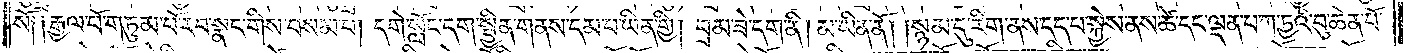སོ། །རྒྱལ་པོ་གཏུམ་པོ་རབ་སྣང་གིས་བསམ་པ། དགེ་སློང་དག་སྦྱིན་གནས་དམ་པ་ཡིན་གྱི། བྲམ་ཟེ་དག་ནི། མ་ཡིན་ནོ། །སྙམ་དུ་རིག་ནས་དད་པ་སྐྱེས་ནས་ཚེ་དང་ལྡན་པ་ཀ་ཏྱའི་བུ་ཆེན་པོ་
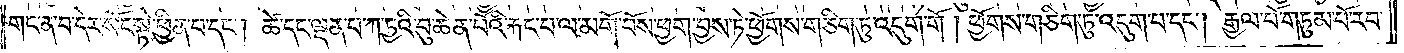གང་ན་བ་དེར་སོང་སྟེ་ཕྱིན་པ་དང༌། ཚེ་དང་ལྡན་པ་ཀ་ཏྱའི་བུ་ཆེན་པོའི་རྐང་པ་ལ་མགོ་བོས་ཕྱག་བྱས་ཏེ་ཕྱོགས་གཅིག་ཏུ་འདུག་གོ །ཕྱོགས་གཅིག་ཏུ་འདུག་པ་དང༌། རྒྱལ་པོ་གཏུམ་པོ་རབ་
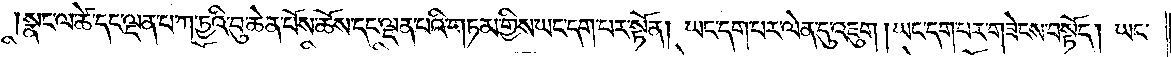སྣང་ལ་ཚེ་དང་ལྡན་པ་ཀ་ཏྱའི་བུ་ཆེན་པོས་ཆོས་དང་ལྡན་པའི་གཏམ་གྱིས་ཡང་དག་པར་སྟོན། ཡང་དག་པར་ལེན་དུ་འཇུག །ཡང་དག་པར་གཟེངས་བསྟོད། ཡང་
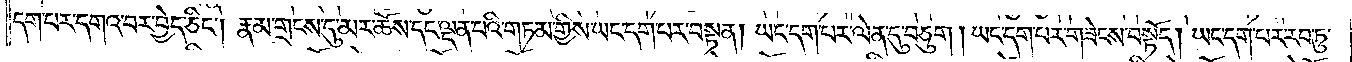དག་པར་དགའ་བར་བྱེད་ཅིང༌། རྣམ་གྲངས་དུ་མར་ཆོས་དང་ལྡན་པའི་གཏམ་གྱིས་ཡང་དག་པར་བསྟན། ཡང་དག་པར་ལེན་དུ་བཅུག །ཡང་དག་པར་གཟེངས་བསྟོད། ཡང་དག་པར་རབ་ཏུ་
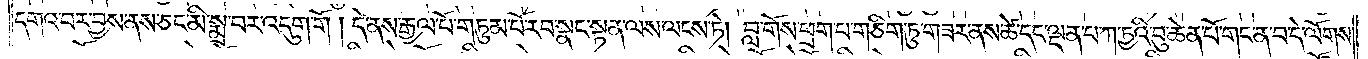དགའ་བར་བྱས་ནས་ཅང་མི་སྨྲ་བར་འདུག་གོ །དེ་ནས་རྒྱལ་པོ་གཏུམ་པོ་རབ་སྣང་སྟན་ལས་ལངས་ཏེ། བླ་གོས་ཕྲག་པ་གཅིག་ཏུ་གཟར་ནས་ཚེ་དང་ལྡན་པ་ཀ་ཏྱའི་བུ་ཆེན་པོ་གང་ན་བ་དེ་ལོགས་
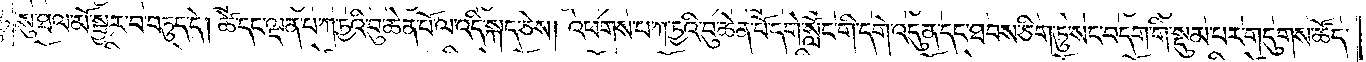སུ་ཐལ་མོ་སྦྱར་བ་བཏུད་དེ། ཚེ་དང་ལྡན་པ་ཀ་ཏྱའི་བུ་ཆེན་པོ་ལ་འདི་སྐད་ཅེས། འཕགས་པ་ཀ་ཏྱའི་བུ་ཆེན་པོ་དགེ་སློང་གི་དགེ་འདུན་དང་ཐབས་ཅིག་ཏུ་སང་བདག་གི་སྡུམ་པར་གདུགས་ཚོད་
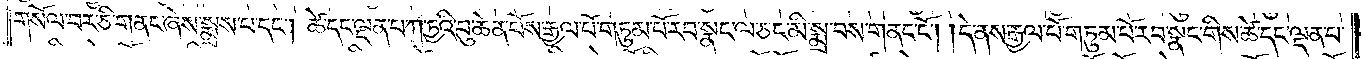གསོལ་བར་ཅི་གནང་ཞེས་སྨྲས་པ་དང༌། ཚེ་དང་ལྡན་པ་ཀ་ཏྱའི་བུ་ཆེན་པོས་རྒྱལ་པོ་གཏུམ་པོ་རབ་སྣང་ལ་ཅང་མི་སྨྲ་བས་གནང་ངོ༌། །དེ་ནས་རྒྱལ་པོ་གཏུམ་པོ་རབ་སྣང་གིས་ཚེ་དང་ལྡན་པ་
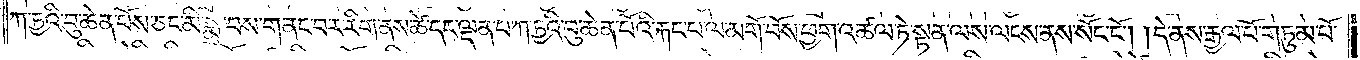ཀ་ཏྱའི་བུ་ཆེན་པོས་ཅང་མི་སྨྲ་བས་གནང་བར་རིག་ནས་ཚེ་དང་ལྡན་པ་ཀ་ཏྱའི་བུ་ཆེན་པོའི་རྐང་པ་ལ་མགོ་བོས་ཕྱག་འཚལ་ཏེ་སྟན་ལས་ལངས་ནས་སོང་ངོ༌། །དེ་ནས་རྒྱལ་པོ་གཏུམ་པོ་
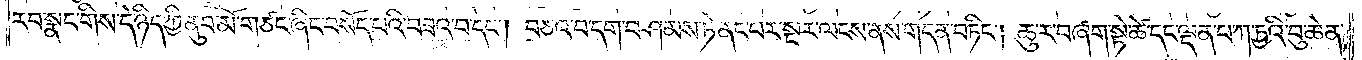རབ་སྣང་གིས་དེ་ཉིད་ཀྱི་ནུབ་མོ་གཙང་ཞིང་བསོད་པའི་བཟའ་བ་དང༌། བཅའ་བ་དག་བཤམས་ཏེ་ནང་པར་སྔར་ལངས་ནས་གདན་བཏིང༌། ཆུ་ར་བཞག་སྟེ་ཚེ་དང་ལྡན་པ་ཀ་ཏྱའི་བུ་ཆེན་
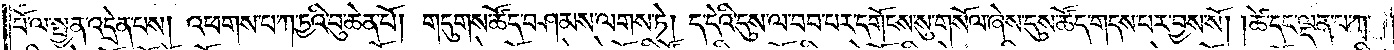པོ་ལ་སྤྱན་འདྲེན་པས། འཕགས་པ་ཀ་ཏྱའི་བུ་ཆེན་པོ། གདུགས་ཚོད་བཤམས་ལགས་ཏེ། ད་དེའི་དུས་ལ་བབ་པར་དགོངས་སུ་གསོལ་ཞེས་དུས་ཚོད་གདས་པར་བྱས་སོ། །ཚེ་དང་ལྡན་པ་ཀ་
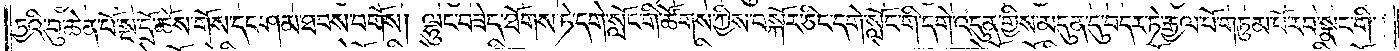ཏྱའི་བུ་ཆེན་པོ་སྔ་དྲོ་ཆོས་གོས་དང་ཤམ་ཐབས་བགོས། ལྷུང་བཟེད་ཐོགས་ཏེ་དགེ་སློང་གི་ཚོགས་ཀྱིས་བསྐོར་ཅིང་དགེ་སློང་གི་དགེ་འདུན་གྱིས་མདུན་དུ་བདར་ཏེ་རྒྱལ་པོ་གཏུམ་པོ་རབ་སྣང་གི་
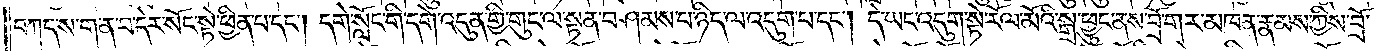བཀད་ས་ག་ན་བ་དེར་སོང་སྟེ་ཕྱིན་པ་དང༌། དགེ་སློང་གི་དགེ་འདུན་གྱི་གུང་ལ་སྟན་བཤམས་པ་ཉིད་ལ་འདུག་པ་དང༌། དེ་ཡང་འདུག་སྟེ་རོལ་མོའི་སྒྲ་ཕྱུང་ནས་བྲོ་གར་མཁན་རྣམས་ཀྱིས་བྲོ་
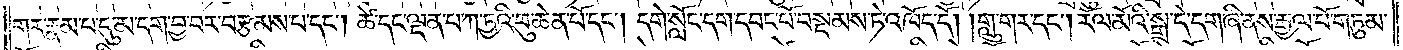གར་རྣམ་པ་དུ་མ་དག་བྱ་བར་བརྩམས་པ་དང༌། ཚེ་དང་ལྡན་པ་ཀ་ཏྱའི་བུ་ཆེན་པོ་དང༌། དགེ་སློང་དག་དབང་པོ་བསྡམས་ཏེ་འཁོད་དོ། །གླུ་གར་དང༌། རོལ་མོའི་སྒྲ་དེ་དག་ཞི་ནས་རྒྱལ་པོ་གཏུམ་
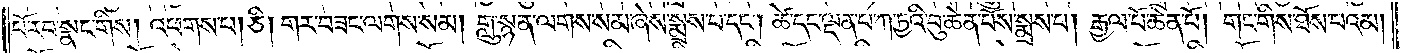པོ་རབ་སྣང་གིས། འཕགས་པ། ཅི། གར་བཟང་ལགས་སམ། གླུ་སྙན་ལགས་སམ་ཞེས་སྨྲས་པ་དང༌། ཚེ་དང་ལྡན་པ་ཀ་ཏྱའི་བུ་ཆེན་པོས་སྨྲས་པ། རྒྱལ་པོ་ཆེན་པོ། གང་གིས་ཐོས་པའམ།
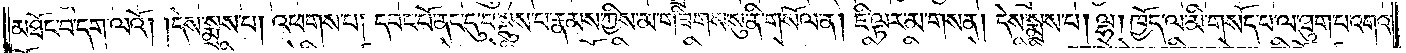མཐོང་བ་དག་ལའོ། །དེས་སྨྲས་པ། འཕགས་པ། དབང་པོ་ནང་དུ་བསྡུས་པ་རྣམས་ཀྱིས་མ་གཟིགས་སུ་ནི་གསོལ་ན། ཇི་ལྟར་མ་གསན། དེས་སྨྲས་པ། ལྷ། ཁྱོད་ལ་མི་གསོད་པ་ལ་ཐུག་པ་འགའ་
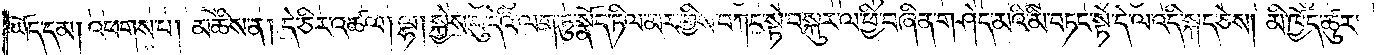ཡོད་དམ། འཕགས་པ། མཆིས་ན། དེ་ཅིར་འཚལ། ལྷ། སྐྱེས་བུ་དེའི་ལག་ཏུ་སྣོད་ཏིལ་མར་གྱིས་བཀང་སྟེ་བསྐུར་ལ་ཕྱི་བཞིན་གཤེད་མའི་མི་བཏང་སྟེ་དེ་ལ་འདི་སྐད་ཅེས། མི་ཁྱོད་ཚུར་
